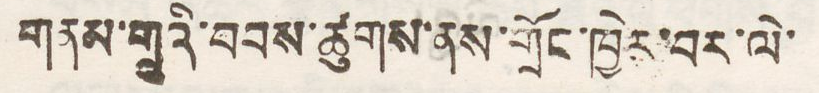གནམ་གྲུའི་བབས་ཚུགས་ནས་གྲོང་ཁྱེར་བར་ལེ་
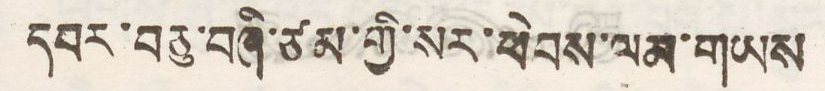དབར་བཅུ་བཞི་ཙམ་གྱི་སར་ཕེབས་ལམ་གཡས
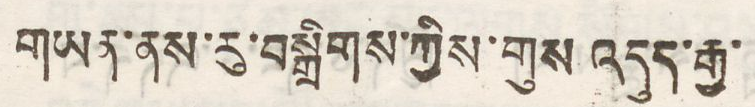གཡན་ནས་རུ་བསྒྲིགས་ཀྱིས་གུས འདུད་རྒྱ་
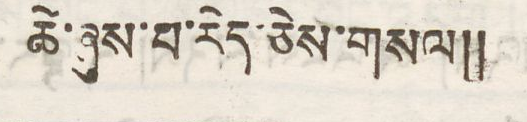ཆེ་ཞུས་པ་རེད་ཅེས་གསལ།།
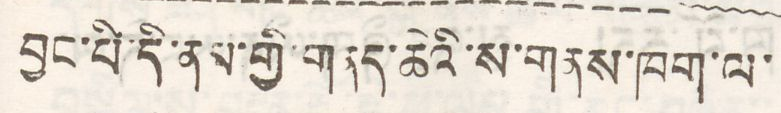བྱང་པི་དི་ནམ་གྱི་གནད་ཆེའི་ས་གནས་ཁག་ལ་
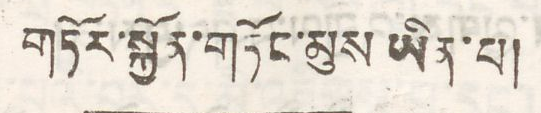གཏོར་སྐྱོན་གཏོང་མུས ཡིན་པ།
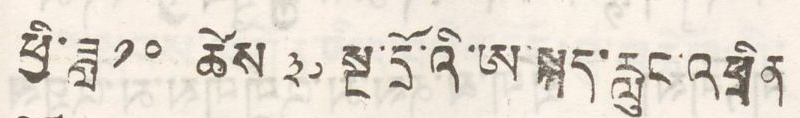ཕྱི་ཟླ ༡༠ ཚེས་ ༣༠ སྔ་དྲོ་འི་ཨ་སྐད་རླུང་འཕྲིན
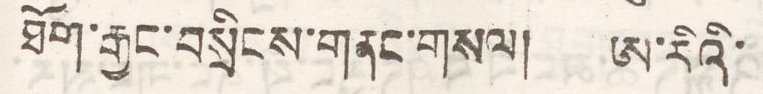ཐོག་རྒྱང་བསྲིངས་གནང་གསལ། ཨ་རིའི་
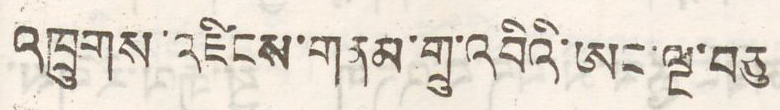འཁྲུགས་འཛིངས་གནམ་གྲུ་འབིའི་ཨང་ལྔ་བཅུ
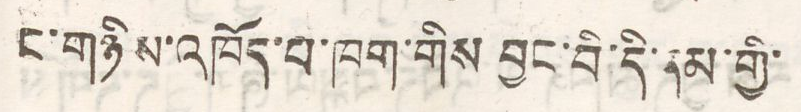ང་གཉིས་འཁོད་པ་ཁག་གིས བྱང་བི་དི་ནམ་གྱི་
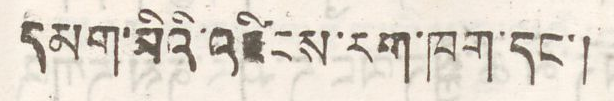དམགས་མིའི་འཛིངས་རག་ཁག་དང་།
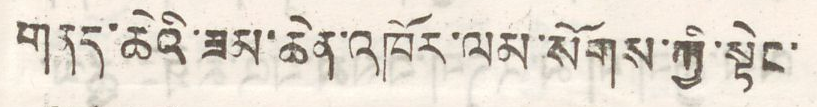གནད་ཆེའི་ཟམ་ཆེན་འཁོར་ལམ་སོགས་ཀྱི་སྟེང་
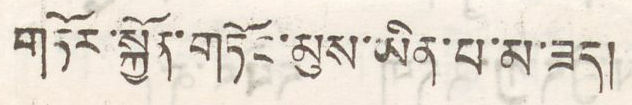གཏོར་སྐྱོན་གཏོང་མུས་ཡིན་པ་མ་ཟད།
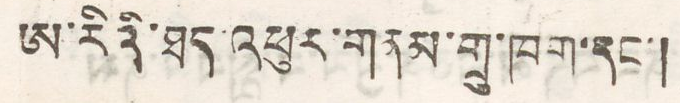ཨ་རིའི་ཐད་འཕུར་གནམ་གྲུ་ཁག་དང་།
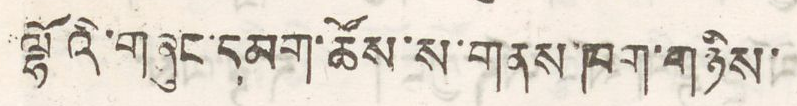ལྷོའི་གཞུང་ཚོས་ས་གནས་ཁག་གཉིས་
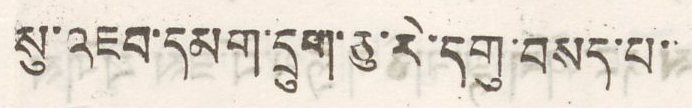སུ་འཇབ་དམག་དྲུག་ཅུ་རེ་དགུ་བསད་པ་་
